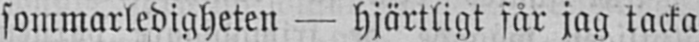sommarledigheten — hjärtligt får jag tacka
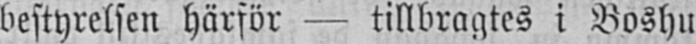bestyrelsen härför — tillbragtes i Boshu
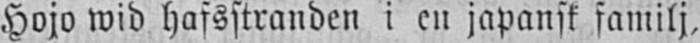Hojo wid hafsstranden i en japansk familj,
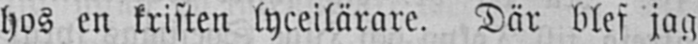hos en kristen lyceilärare. Där blef jag
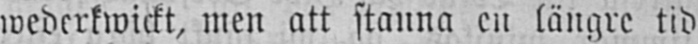wederkwickt, men att stanna en längre tid
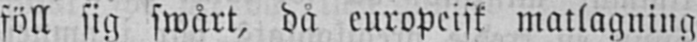föll sig swårt, då europeisk matlagning
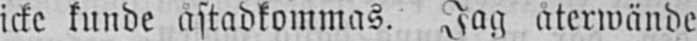icke kunde åstadkommas. Jag återwände
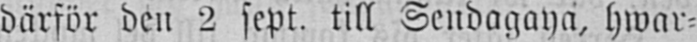därför den 2 sept. till Sendagaya, hwar-
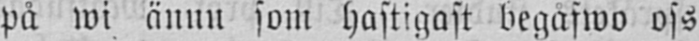på wi ännu som hastigast begåfwo oss
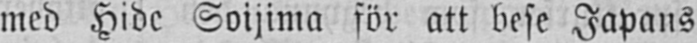med Hide Soijima för att bese Japans
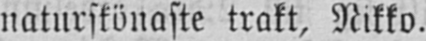naturskönaste trakt, Nikko.
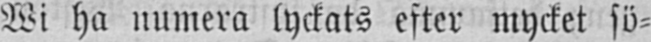Wi ha numera lyckats efter mycket sö-
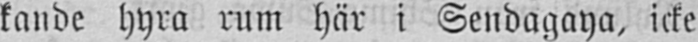kande hyra rum här i Sendagaya, icke
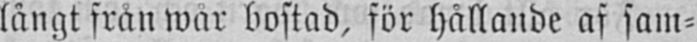långt från wår bostad, för hållande af sam-
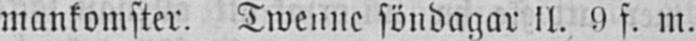mankomster. Twenne söndagar kl. 9 f. m.
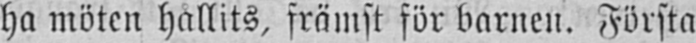ha möten hållits, främst för barnen. Första
